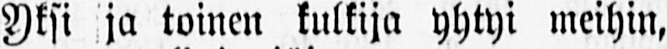Yksi ja toinen kulkija yhtyi meihin,
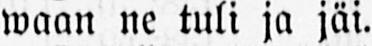waan ne tuli ja jäi.
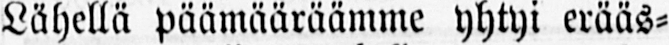Lähellä päämääräämme yhtyi erääs-
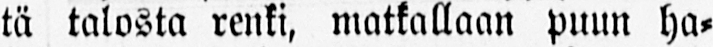tä talosta renki, matkallaan puun ha-
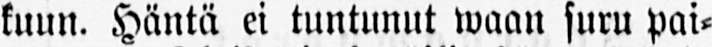kunn. Häntä ei tuntunut waan suru pai-
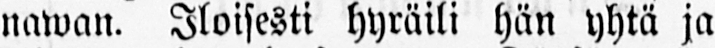nawan. Iloisesti hyräili hän yhtä ja
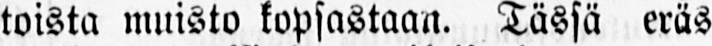toista muisto kopsastaan. Tässä eräs
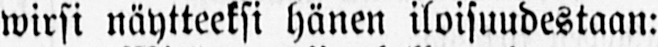wirsi näytteeksi hänen iloisuudestaan:
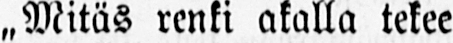„Mitäs renki akalla tekee
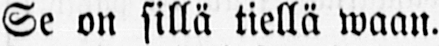Se on sillä tiellä waan.
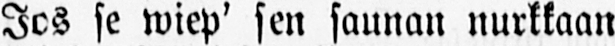Jos se wiep' sen saunan nurkkaan
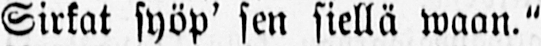Sirkat syöp' sen siellä waan."
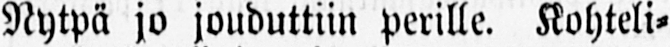Nytpä jo jouduttiin perille. Kohteli-
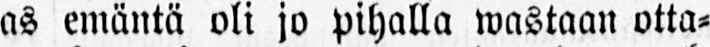as emäntä oli jo pihalla wastaan otta-
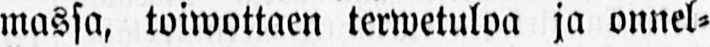massa, toiwottaen terwetuloa ja onnel-
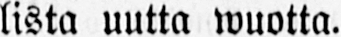lista uutta wuotta.
